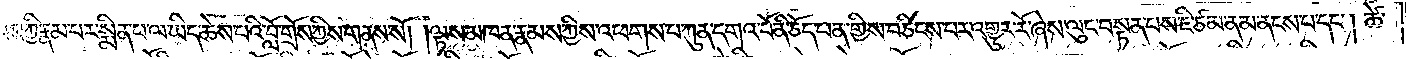ལས་ཀྱི་རྣམ་པར་སྨིན་པ་ལ་ཡིད་ཆེས་པའི་བློ་གྲོས་ཀྱིས་གནས་སོ། །ལྟས་མཁན་རྣམས་ཀྱིས་འཕགས་པ་ཀུན་དགའ་བོ་ནི་ཅོད་པན་གྱིས་བཅིངས་པར་འགྱུར་རོ་ཞེས་ལུང་བསྟན་པས་ཇི་ཙམ་ནམ་ནངས་པ་དང༌། ཚེ་
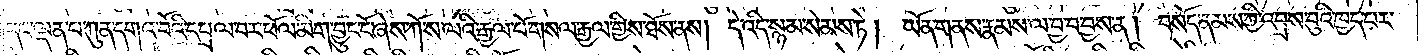དང་ལྡན་པ་ཀུན་དགའ་བོའི་དཔྲལ་བར་ཕོལ་མིག་བྱུང་ངོ་ཞེས་ཀོ་ས་ལའི་རྒྱལ་པོ་གསལ་རྒྱལ་གྱིས་ཐོས་ནས། དེ་འདི་སྙམ་སེམས་ཏེ། ཡོན་གནས་རྣམས་ལ་བྱ་བ་བྱས་ན། བསོད་ནམས་ཀྱི་འབྲས་བུའི་ཁྱད་པར་
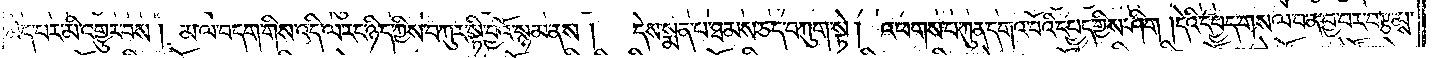མེད་པར་མི་འགྱུར་པས། མ་ལ་བདག་གིས་འདི་ལ་རང་ཉིད་ཀྱིས་བཀུར་སྟི་བྱའོ་སྙམ་ནས།  དེས་སྨན་པ་ཐམས་ཅད་བཀུག་སྟེ། འཕགས་པ་ཀུན་དགའ་བོའི་དཔྱད་གྱིས་ཤིག །དེའི་དཔྱད་གསལ་བ་ན་བྱ་བར་བརྩམས་
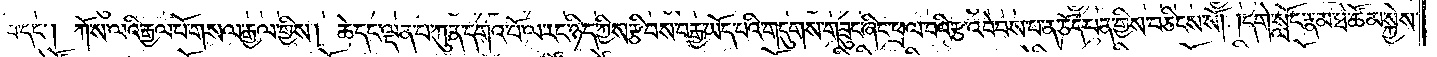པ་དང༌། ཀོ་ས་ལའི་རྒྱལ་པོ་གསལ་རྒྱལ་གྱིས། ཆེ་དང་ལྡན་པ་ཀུན་དགའ་བོ་ལ་རང་ཉིད་ཀྱིས་རྩིབས་བརྒྱ་ཡོད་པའི་གདུགས་གཟུང་ཞིང་ཕྲལ་བའི་རྩ་འབེབས་པ་ན་ཅོད་པན་གྱིས་བཅིངས་སོ། །དགེ་སློང་རྣམས་ཐེ་ཚོམ་སྐྱེས་
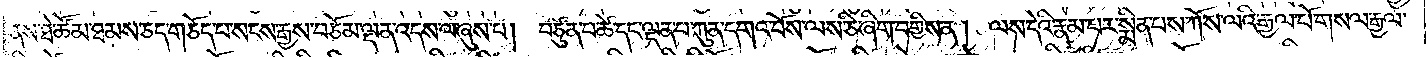ནས་ཐེ་ཚོམ་ཐམས་ཅད་གཅོད་པ་སངས་རྒྱས་བཅོམ་ལྡན་འདས་ལ་ཞུས་པ། བཙུན་པ་ཚེ་དང་ལྡན་པ་ཀུན་དགའ་བོས་ལས་ཅི་ཞིག་བགྱིས་ན། ལས་དེའི་རྣམ་པར་སྨིན་པས་ཀོ་ས་ལའི་རྒྱལ་པོ་གསལ་རྒྱལ་
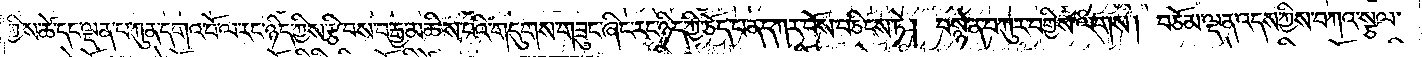གྱིས་ཚེ་དང་ལྡན་པ་ཀུན་དགའ་བོ་ལ་རང་ཉིད་ཀྱིས་རྩིབས་བརྒྱ་མཆིས་པའི་གདུགས་གཟུང་ཞིང་རང་ཉིད་ཀྱི་ཅོད་པན་དཀར་པོས་བཅིངས་ཏེ། བསྙེན་བཀུར་བགྱིས་ལགས། བཅོམ་ལྡན་འདས་ཀྱིས་བཀའ་སྩལ་
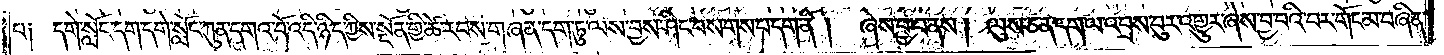པ༑ དགེ་སློང་དག་དགེ་སློང་ཀུན་དགའ་བོ་འདི་ཉིད་ཀྱིས་སྔོན་གྱི་ཚེ་རབས་གཞན་དག་ཏུ་ལས་བྱས་ཤིང་བསགས་པ་དག་ནི། ཞེས་བྱ་བ་ནས། ལུས་ཅན་དག་ལ་འབྲས་བུར་འགྱུར་ཞེས་བྱ་བའི་བར་གོང་མ་བཞིན་
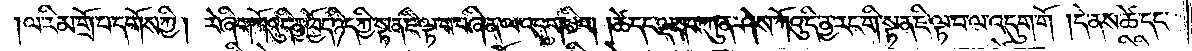ལ་རིམ་གྲོ་པ་དགོས་ཀྱི། རེ་ཞིག་ཀོའུ་དི་ནྱ་ཁྱོད་ཉིད་ཀྱི་སྟན་ཇི་ལྟ་བ་བཞིན་ལ་འདུག་ཅིག །ཚེ་དང་ལྡན་པ་ཀུན་ཤེས་ཀོའུ་དི་ནྱ་རང་གི་སྟན་ཇི་ལྟ་བ་ལ་འདུག་གོ །དེ་ནས་ཚེ་དང་
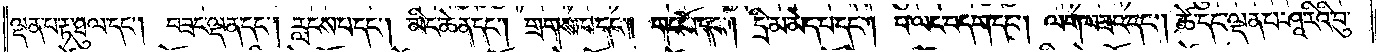ལྡན་པ་རྟ་ཐུལ་དང༌། བཟང་ལྡན་དང༌། རླངས་པ་དང༌། མིང་ཆེན་དང༌། གྲགས་པ་དང༌། གང་པོ་དང༌། དྲི་མ་མེད་པ་དང༌། བ་ལང་བདག་དང༌། ལག་བཟང་དང༌། ཚེ་དང་ལྡན་པ་ཤཱ་རིའི་བུ་
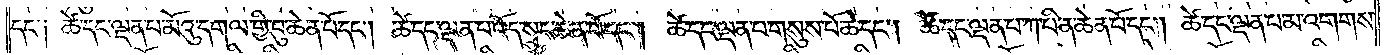དང་༑ ཚེ་དང་ལྡན་པ་མོའུ་དགལ་གྱི་བུ་ཆེན་པོ་དང༌། ཚེ་དང་ལྡན་པ་འོད་སྲུང་ཆེན་པོ་དང༌། ཚེ་དང་ལྡན་པ་གསུས་པོ་ཆེ་དང༌། ཚེ་དང་ལྡན་པ་ཀ་པི་ན་ཆེན་པོ་དང༌། ཚེ་དང་ལྡན་པ་མ་འགགས་
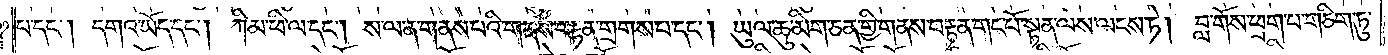པ་དང༌། དགའ་ཡོད་དང༌། ཀི་མ་ཕི་ལ་དང༌། ས་ལ་ན་གནས་པའི་གནས་བརྟན་གྲགས་པ་དང༌། ཡུལ་ཆུ་མིག་ཅན་གྱི་གནས་བརྟན་གང་པོ་སྟན་ལས་ལངས་ཏེ། བླ་གོས་ཕྲག་པ་གཅིག་ཏུ་
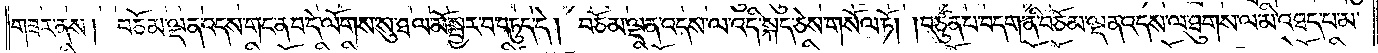གཟར་ནས། བཅོམ་ལྡན་འདས་གང་ན་བ་དེ་ལོགས་སུ་ཐལ་མོ་སྦྱར་བ་བཏུད་དེ། བཅོམ་ལྡན་འདས་ལ་འདི་སྐད་ཅེས་གསོལ་ཏོ། །བཙུན་པ་བདག་ནི་བཅོམ་ལྡན་འདས་ལ་ཐུགས་ལ་མི་འཐད་པ་མ་
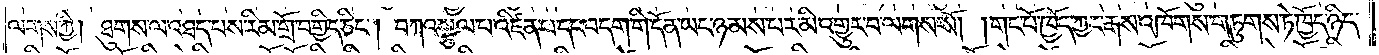ལགས་ཀྱི། ཐུགས་ལ་འཐད་པས་རིམ་གྲོ་བགྱིད་ཅིང༌། བཀའ་སྩལ་པ་འཛིན་པ་དང་བདག་གི་དོན་ཡང་ཉམས་པར་མི་འགྱུར་བ་ལགས་སོ། །གང་པོ་ཁྱོད་ཀྱང་རྒས་འཁོགས་གཏུགས་ཏེ་ཁྱོད་ཉིད་
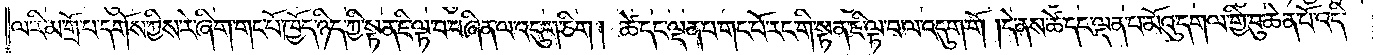ལ་རིམ་གྲོ་པ་དགོས་ཀྱིས་རེ་ཞིག་གང་པོ་ཁྱོད་ཉིད་ཀྱི་སྟན་ཇི་ལྟ་བ་བཞིན་ལ་འདུག་ཅིག །ཚེ་དང་ལྡན་པ་གང་པོ་རང་གི་སྟན་ཇི་ལྟ་བ་ལ་འདུག་གོ །དེ་ནས་ཚེ་དང་ལྡན་པ་མོའུ་དགལ་གྱི་བུ་ཆེན་པོ་འདི་
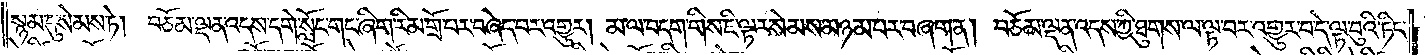སྙམ་དུ་སེམས་ཏེ། བཅོམ་ལྡན་འདས་དགེ་སློང་གང་ཞིག་རིམ་གྲོ་བར་བཞེད་པར་འགྱུར། མ་ལ་བདག་གིས་ཇི་ལྟར་སེམས་མཉམ་པར་བཞག་ན། བཅོམ་ལྡན་འདས་ཀྱི་ཐུགས་ལ་ལྟ་བར་འགྱུར་བ་དེ་ལྟ་བུའི་ཏིང་
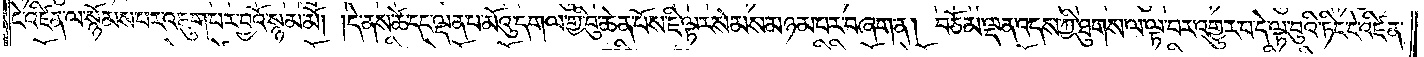ངེ་འཛིན་ལ་སྙོམས་པར་འཇུག་པར་བྱའོ་སྙམ་མོ། །དེ་ནས་ཚེ་དང་ལྡན་པ་མོའུ་དགལ་གྱི་བུ་ཆེན་པོས་ཇི་ལྟར་སེམས་མཉམ་པར་བཞག་ན། བཅོམ་ལྡན་འདས་ཀྱི་ཐུགས་ལ་ལྟ་བར་འགྱུར་བ་དེ་ལྟ་བུའི་ཏིང་ངེ་འཛིན་
